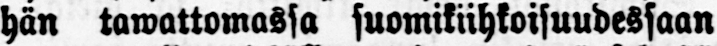hän tawattomassa suomikiihkoisuudessaan
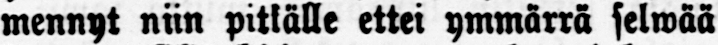mennyt niin pitkälle ettei ymmärrä selwää
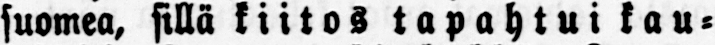suomea, sillä kiitos tapahtui kau-
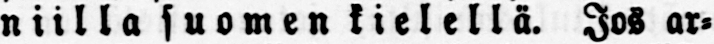niilla suomen kielellä. Jos ar-
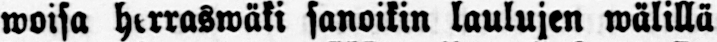woisa herraswäki sanoikin laulujen wälillä
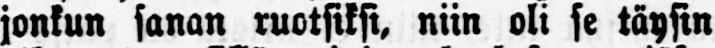jonkun sanan ruotsiksi, niin oli se täysin
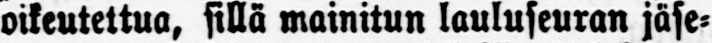oikeutettua, sillä mainitun lauluseuran jäse-
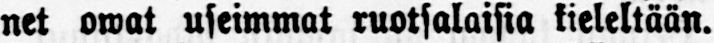net owat useimmat ruotsalaisia kieleltään.
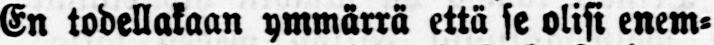En todellakaan ymmärrä että se olisi enem-
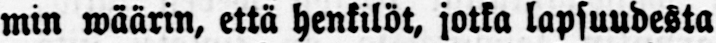min wäärin, että henkilöt, jotka lapsuudesta
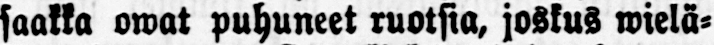saakka owat puhuneet ruotsia, joskus wielä-
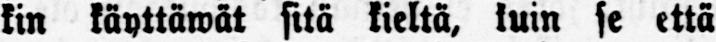kin käyttäwät sitä kieltä, kuin se että
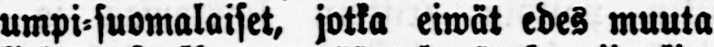umpi-suomalaiset, jotka eiwät edes muuta
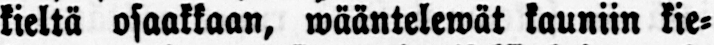kieltä osaakkaan, wääntelewät kauniin kie-
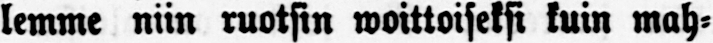lemme niin ruotsin woittoiseksi kuin mah-
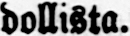dollista.
